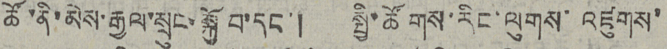ཚོ་ནི་མེས་རྒྱལ་སྲུང་སྐྱོབ་དང་། སྤྱི་ཚོགས་རིང་ལུགས་འཛུགས་
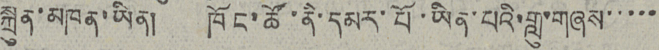སྐྲུན་མཁན་ཡིན། ཁོང་ཚོ་ནི་དམར་པོ་ཡིན་པའི་གླུ་གཞས་་་་་་
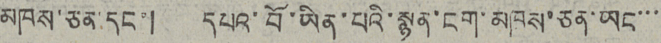མཁས་ཅན་དང་། དཔའ་བོ་ཡིན་པའི་སྙན་ངག་མཁས་ཅན་ཡང་་་
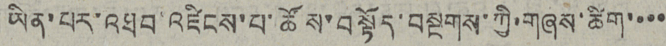ཡིན་པར་འཐབ་འཛིངས་པ་ཚོས་བསྟོད་བསྔགས་ཀྱི་གཞས་ཚིག་་་་
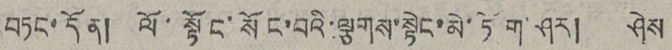བཏང་དོན། ལོ་སྟོང་སོང་བའི་ལྕགས་སྟེང་མེ་ཏོག་ཤར། ཤེས
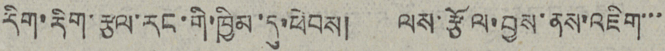རིག་རིག་རྩལ་རང་གི་ཁྱིམ་དུ་ཕེབས། ལས་རྩོལ་བྱས་ནས་འཇིག་་་
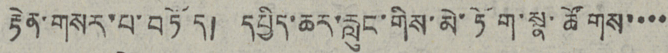རྟེན་གསར་པ་བཏོད།  དཔྱིད་ཆར་རླུང་གིས་མེ་ཏོག་སྣ་ཚོགས་་་་
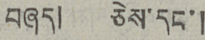བཞད།  ཅེས་དང་།
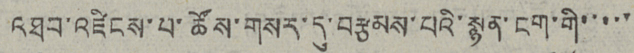འཐབ་འཛིངས་པ་ཚོས་གསར་དུ་བརྩམས་པའི་སྙན་ངག་གི་་་་་
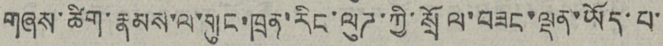གཞས་ཚིག་རྣམས་ལ་གུང་ཁྲན་རིང་ལུཌ་ཀྱི་སྲོལ་བཟང་ལྡན་ཡོད་པ་
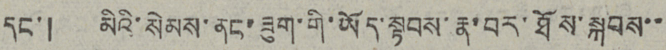དང་། མིའི་སེམས་ནང་ཟུག་གི་ཡོད་སྟབས་རྣ་བར་ཐོས་སྐབས་་
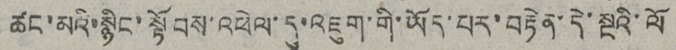ཚང་མའི་སྙིང་སྟོབས་འཕེལ་དུ་འཇུག་གི་ཡོད་པར་བརྟེན་དེ་སྔའི་ལོ
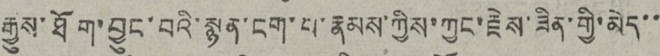རྒྱུས་ཐོག་བྱུང་བའི་སྙན་ངག་པ་རྣམས་ཀྱིས་ཀྱང་རྗེས་ཟིན་གྱི་མེད་་
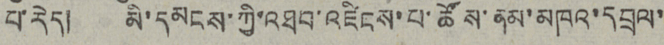པ་རེད།  མི་དམངས་ཀྱི་འཐབ་འཛིངས་པ་ཚོས་ནམ་མཁའ་དབྲལ་
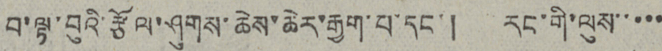བ་ལྟ་བུའི་རྩོལ་ཤུགས་ཆེས་ཆེར་རྒྱག་པ་དང་།  རང་གི་ལུས་་་་་
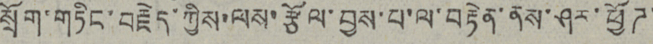སྲོག་གཏིང་བརྗེད་ཀྱིས་ལས་རྩོལ་བྱས་པ་ལ་བརྟེན་ནས་ཤར་ཕྱོཌ་
